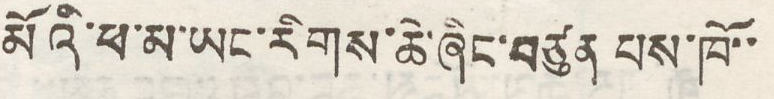མོའི་ཕ་མ་ཡང་རིགས་ཆེ་ཞིང་བཙུན པས་ཁོ་་
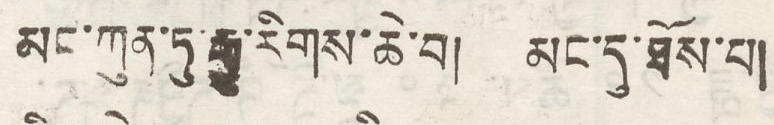མང་ཀུན་ཏུ་རྒྱུ་རིགས་ཆེ་བ། མང་དུ་ཐོས་པ།
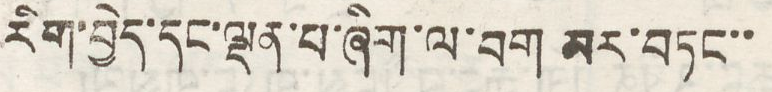རིག་བྱེད་དང་ལྡན་པ་ཞིག་ལ་བག མར་བཏང་་
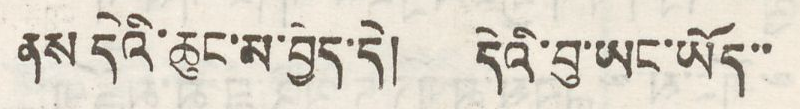ནས དེའི་ཆུང་མ་བྱེད་དེ། དེའི་བུ་ཡང་ཡོད་་
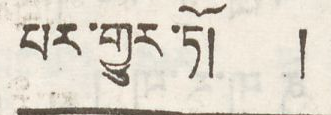པར་གྱུར་ཏོ། །
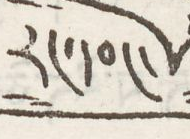རང་དབང་
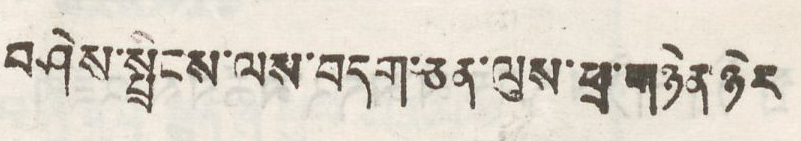བཤེས་སྤྲིངས་ལས་བདག་ཅན་ལུས་ཕྲ་གཉེན་ཉེར
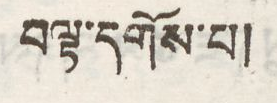བལྟ་དགོས་པ།
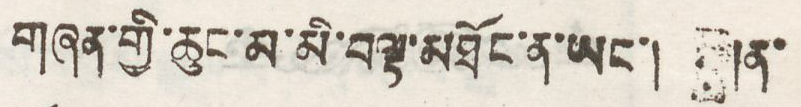གཞན་གྱི་ཆུང་མ་མི་བལྟ་མཐོང་ན་ཡང་། །ན་
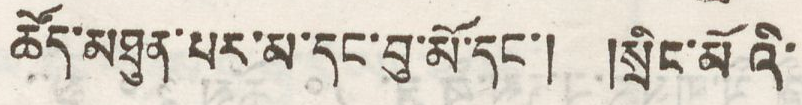ཚོད་མཐུན་པར་མ་དང་བུ་མོ་དང་། །སྲིང་མོའི་
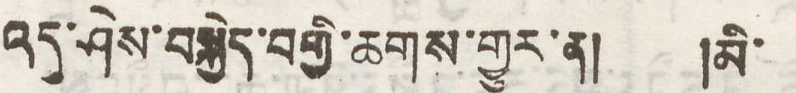འདུ་ཤེས་བསྐྱེད་བགྱི་ཆགས་གྱུར་ན། །མི་
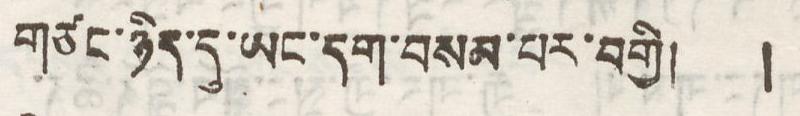གཙང་ཉིད་དུ་ཡང་དག་བསམ་པར་བགྱི། །
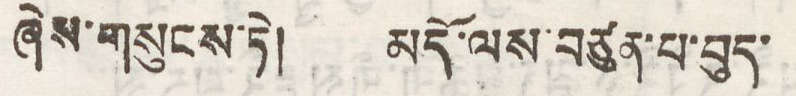ཞེས་གསུངས་ཏེ། མདོ་ལས་བཙུན་པ་བུད་
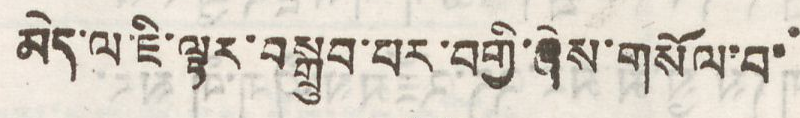མེད་ལ་ཇི་ལྟར་བསྒྲུབ་པར་བགྱི་ཞེས་གསོལ་བ་
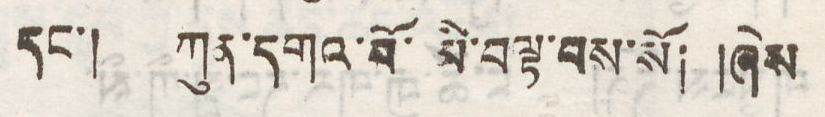དང་། ཀུན་དགའ་བོ་མི་བལྟ་བས་སོ། ཞེས
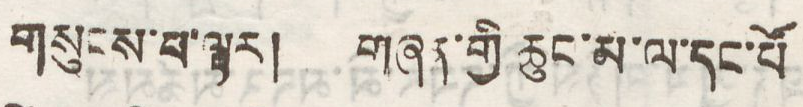གསུངས་པ་ལྟར། གཞན་གྱི ཆུང་མ་ལ་དང་པོ
